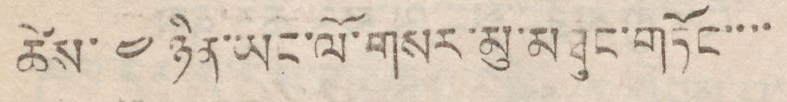ཚེས་ ༤ ཉིན་ཡང་ལོ་གསར་མུ་མཐུང་གཏོང་་་་
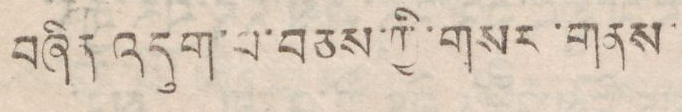བཞིན་འདུག་པ་བཅས་ཀྱི་གསར་གནས་
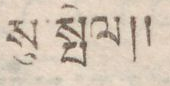སུ་སྤེལ།།
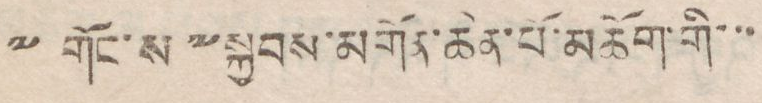༸གོང་ས་༸སྐྱབས་མགོན་ཆེན་པོ་མཆོག་གི་་་
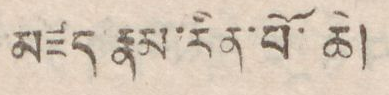མཛད་རྣམ་རིན་པོ་ཆེ།
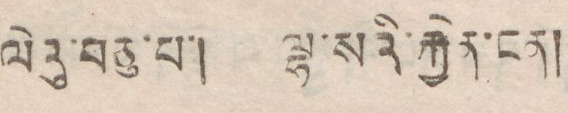ལེའུ་བཅུ་པ་། ལྷ་སའི་རྐྱེན་ངན།
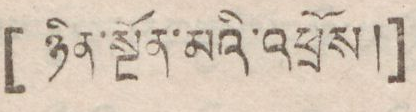[ ཉིན་སྔོན་མའི་འཕྲོས། ]
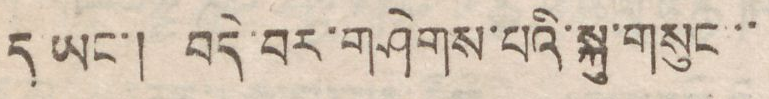ད ཡང་། བདེ་བར་གཤེགས་པའི་སྐུ་གསུང་་
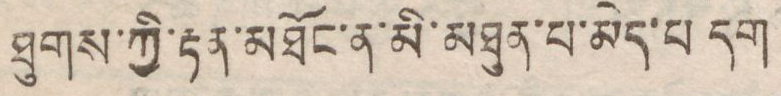ཐུགས་ཀྱི་རྟན་མཐོང་ན་མི་མཐུན་པ་མེད་པ དག
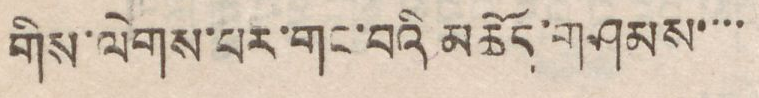གིས་ལེགས་པར་གང་བའི མཆོད་གཤམས་་་་
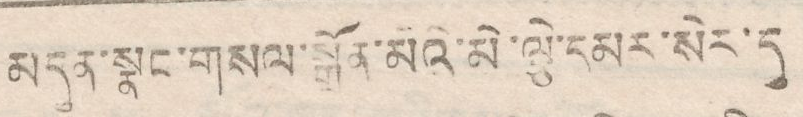མདུན་སྣང་གསལ་སྒྲོན་མེའི་མེ་ལྕེ་དམར་སེར་དུ
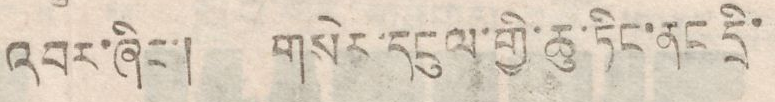འབར་ཞིང་། གསེར་དངུལ་གྱི་ཆུ་ཏིང་ནང་དྲི་
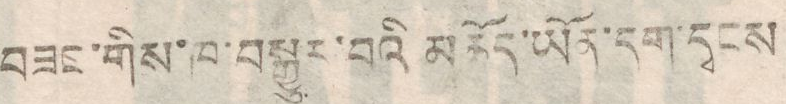བཟང་གིས་ཁ་བསྒྱུར་བའི མཆོད་ཡོན་དག་དྭངས
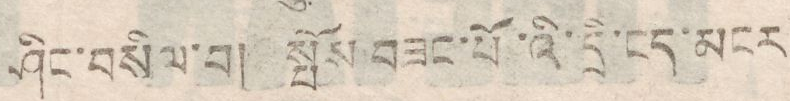ཤིང་བསིལ་བ། སྤོས བཟང་པོ་འི་དྲི་ངད་མངར
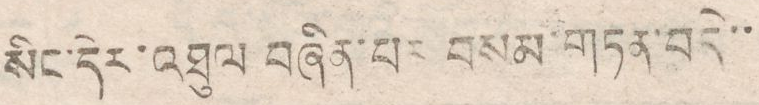སིང་དེར་འཐུལ བཞིན་པར་བསམ་གཏན་བདེ་་
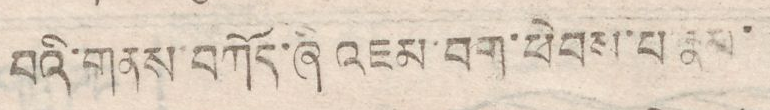བའི་གནས་བཀོད་ཞི་འཇམ་བག་ཕེབས་པ་རྣམ་
